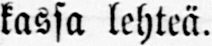kassa lehteä.
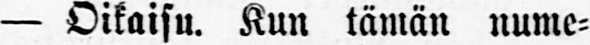— Oikaisu. Kun tämän nume-
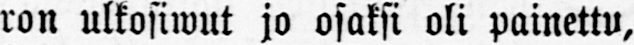ron ulkosiwut jo osaksi oli painettu,
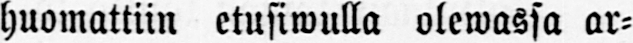huomattiin etusiwulla olewassa ar-
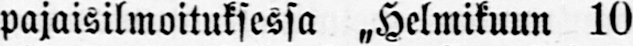pajaisilmoituksessa „Helmikuun 10
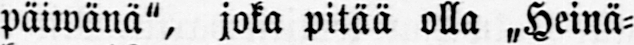päiwänä", joka pitää olla „Heinä-
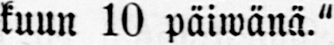kuun 10 päiwänä."
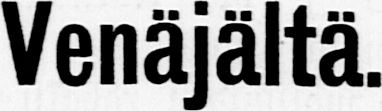Venäjältä.
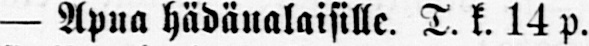— Apua hädänalaisille. T. k. 14 p.
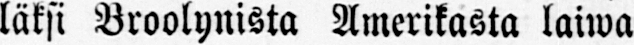läksi Broolynista Amerikasta laiwa
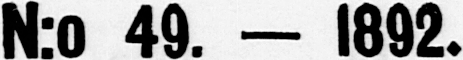N:o 49. — 1892.
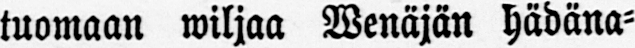tuomaan wiljaa Wenäjän hädäna-
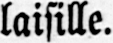laisille.
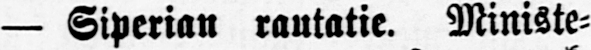— Siperian rautatie. Ministe-
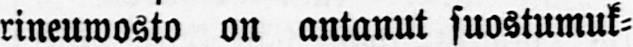rineuwosto on antanut suostumuk-
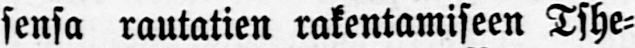sensa rautatien rakentamiseen Tshe-
